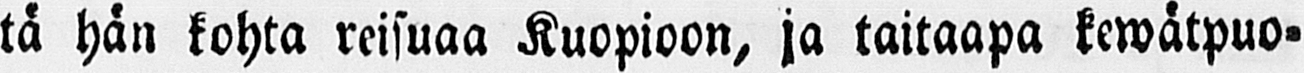tä hän kohta reisuaa Kuopioon, ja taitaapa kewätpuo-
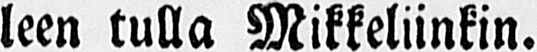leen tulla Mikkeliinkin.
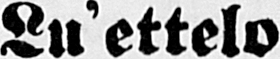Lu'ettelo
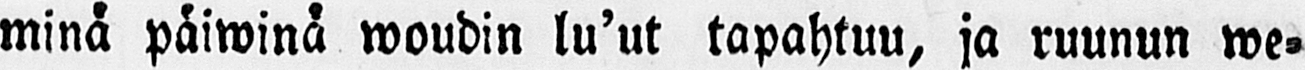minä päiwinä woudin lu'ut tapahtuu, ja ruunun we-
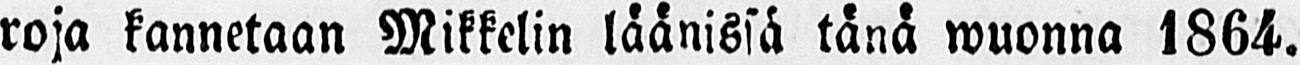roja kannetaan Mikkelin läänissä tänä wuonna 1864.
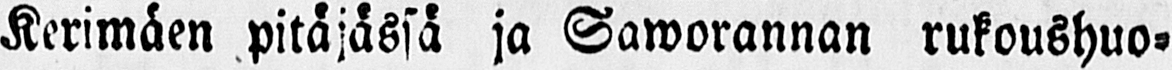Kerimäen pitäjässä ja Saworannan rukoushuo-
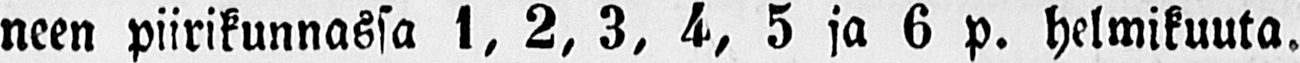neen piirikunnassa 1, 2, 3, 4, 5 ja 6 p. helmikuuta.
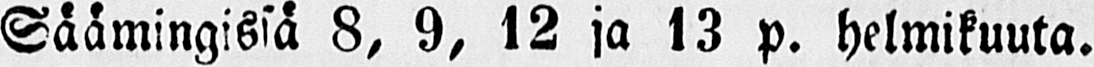Säämingissä 8, 9, 12 ja 13 p. helmikuuta.
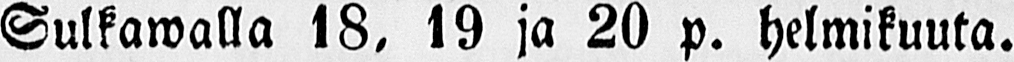Sulkawalla 18. 19 ja 20 p. helmikuuta.
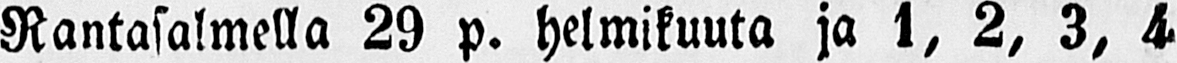Rantasalmella 29 p. helmikuuta ja 1, 2, 3, 4
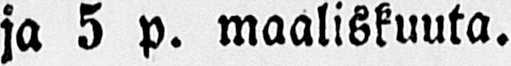ja 5 p. maaliskuuta.
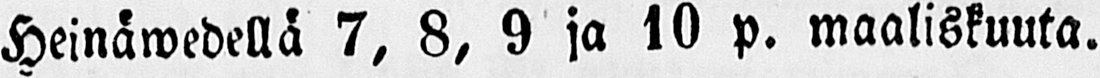Heinäwedellä 7, 8, 9 ja 10 p. maaliskuuta.
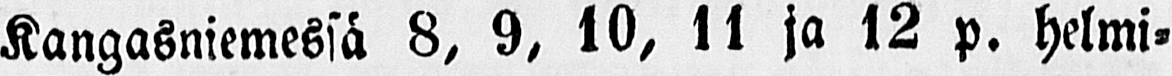Kangasniemessä 8, 9, 10, 11 ja 12 p. helmi-
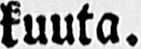kuuta.
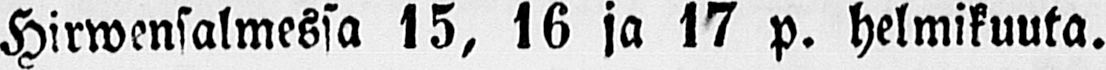Hirwensalmessa 15, 16 ja 17 p. helmikuuta.
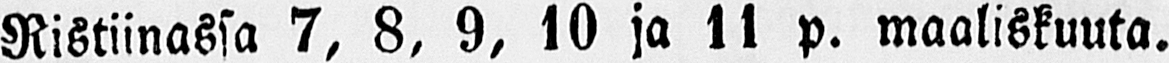Ristiinassa 7, 8, 9, 10 ja 11 p. maaliskuuta.
